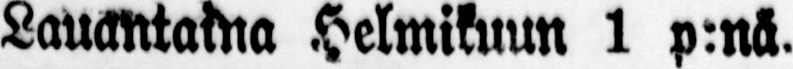Lauantaina Helmikuun 1 p:nä.
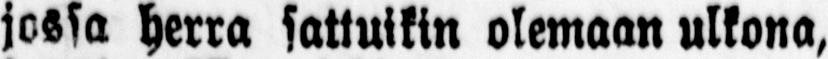jossa herra sattuikin olemaan ulkona,
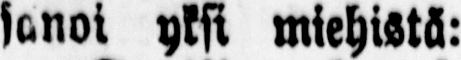sanoi yksi miehistä:
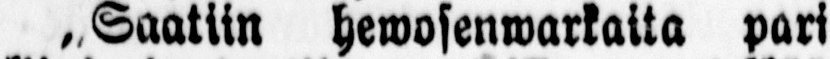„Saatiin hewosenwarkaita pari
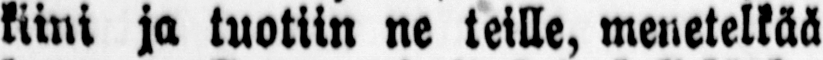kiini ja tuotiin ne teille, menetelkää
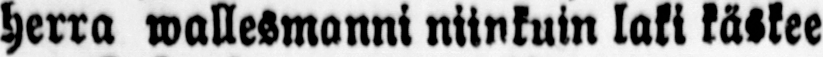herra wallesmanni niinkuin laki käskee
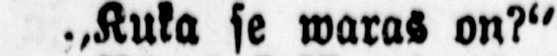„Kuka se waras on?"
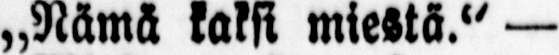„Nämä kaksi miestä." —
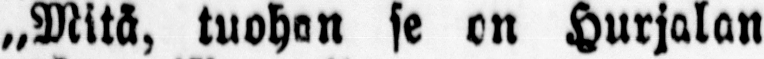„Mitä, tuohon se on Hurjalan
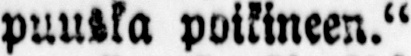puuska poikineen."
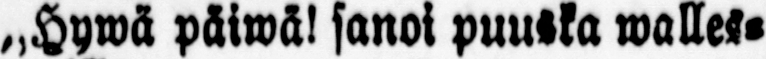„Hywä päiwä! sanoi puuska walles-
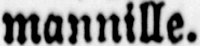mannille.
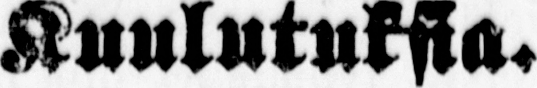Kuulutuksia.
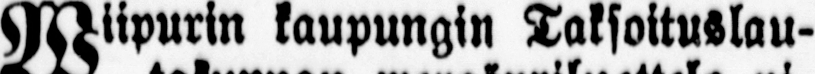Wiipurin kaupungin Taksoituslau-
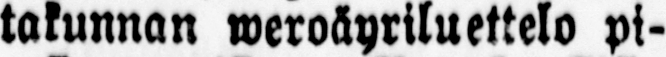takunnan weroäyriluettelo pi-
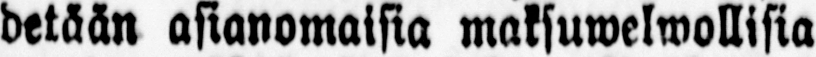detään asianomaisia maksuwelwollisia
